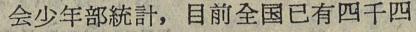会少年部統計，目前全国已有四千四
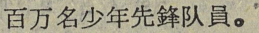百万名少年先鋒队員。
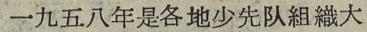一九五八年是各地少先队組織大
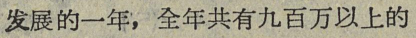发展的一年；全年共有九百万以上的
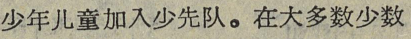少年儿童加入少先队。在大多数少数
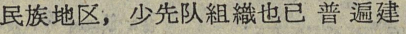民族地区，少先队組織也已普遍建
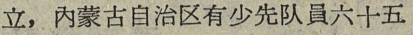立，内蒙古自治区有少先队員六十五
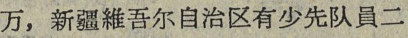万，新題經苦不自治区有少先队員二
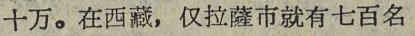十万。在西藏，仅拉薩市就有七百名
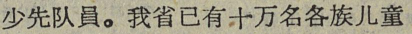少先队員。我省已有十万名各族儿童
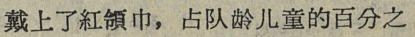戴上了紅領巾，占队龄儿童的百分之
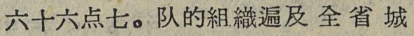六十六点七。队的組織遍及全省城
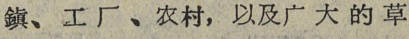鎭、工厂、农村，以及广大的草
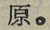原。
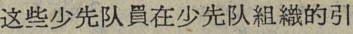这些少先队員在少先队組織的引
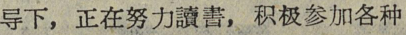导下，正在努力讀書，积极参加各种
